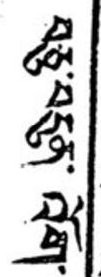བཅུ་བདུན་ འོག་
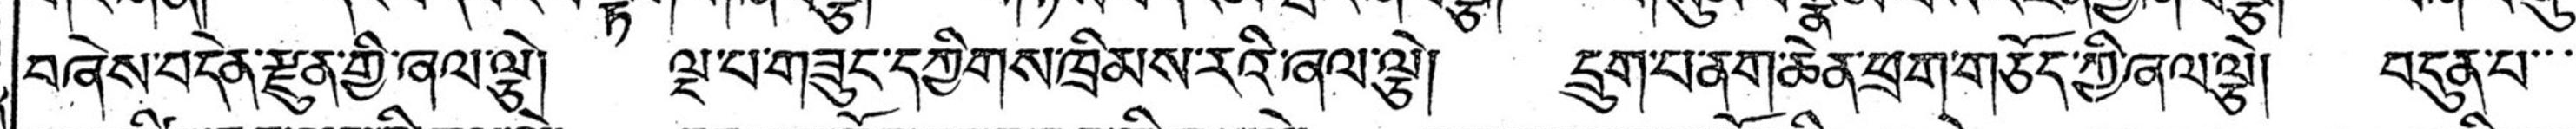བཞེས་བདེན་རྫུན་གྱི་ཞལ་ལྕེ། ལྔ་པ་གཟུང་དཀྱིགས་ཁྲིམས་རའི་ཞལ་ལྕེ། དྲུག་བ་ནག་ཆེན་ཕྲག་གཅོད་ཀྱི་ཞལ་ལྕེ། བདུན་པ་་་་
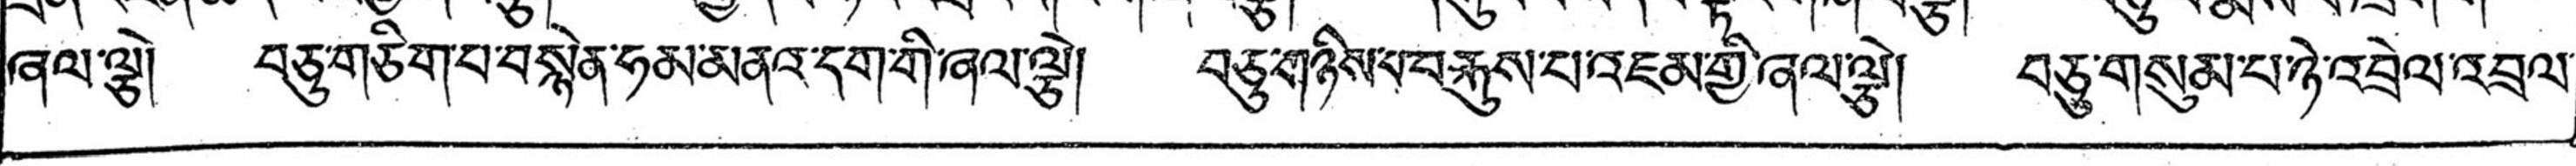ཞལ་ལྕེ། བཅུ་གཅིག་པ་བསྙེན་ཧམ་མནའ་དག་གི་ཞལ་ལྕེ། བཅུ་གཉིསཔ་བརྐུས་པ་འཇམ་གྱི་ཞལ་ལྕེ། བཅུ་གསུམ་པ་ཉེ་འབྲེལ་འབྲལ་
